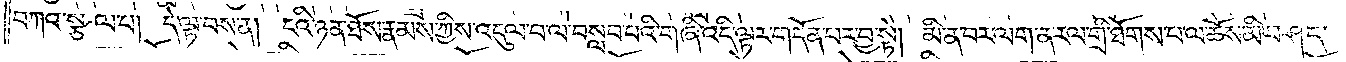བཀའ་སྩལ་པ། དེ་ལྟ་བས་ན། ངའི་ཉན་ཐོས་རྣམས་ཀྱིས་འདུལ་བ་ལ་བསླབ་པའི་གཞི་འདི་ལྟར་གདོན་པར་བྱ་སྟེ། མི་ན་བར་ལག་ན་རལ་གྲི་ཐོགས་པ་ལ་ཆོས་མི་བཤད་
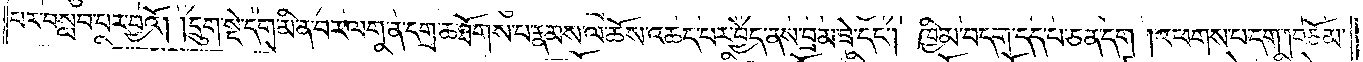པར་བསླབ་པར་བྱའོ། །དྲུག་སྡེ་དག་མི་ན་བར་ལག་ན་དགྲ་ཆ་ཐོགས་པ་རྣམས་ལ་ཆོས་འཆད་པར་བྱེད་ནས་བྲམ་ཟེ་དང༌། ཁྱིམ་བདག་དད་པ་ཅན་དག །འཕགས་པ་དག །བཅོམ་
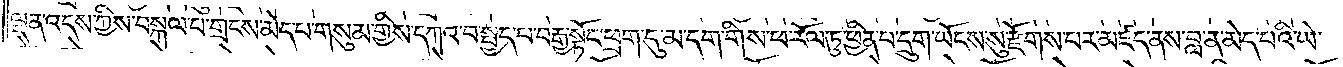ལྡན་འདས་ཀྱིས་བསྐལ་པ་གྲངས་མེད་པ་གསུམ་གྱིས་དཀའ་བ་སྤྱད་པ་བརྒྱ་སྟོང་ཕྲག་དུ་མ་དག་གིས་ཕ་རོལ་ཏུ་ཕྱིན་པ་དྲུག་ཡོངས་སུ་རྫོགས་པར་མཛད་ནས་བླ་ན་མེད་པའི་ཡེ་
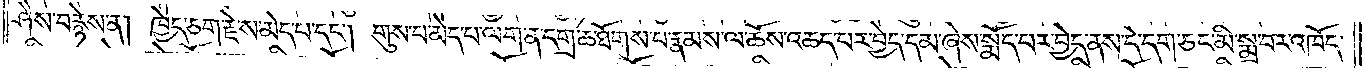ཤེས་བརྙེས་ན། ཁྱེད་ཅག་རྗེས་མེད་པ་དང༌། གུས་པ་མེད་པ་ལག་ན་དགྲ་ཆ་ཐོགས་པ་རྣམས་ལ་ཆོས་འཆད་པར་བྱེད་དམ་ཞེས་སྨོད་པར་བྱེད་ནས་དེ་དག་ཅང་མི་སྨྲ་བར་འཁོད་
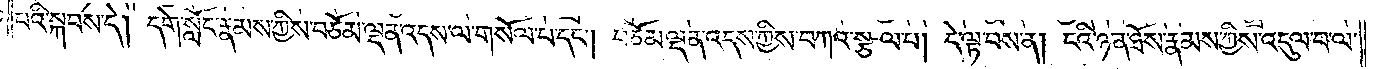པའི་སྐབས་དེ། དགེ་སློང་རྣམས་ཀྱིས་བཅོམ་ལྡན་འདས་ལ་གསོལ་བ་དང༌། བཅོམ་ལྡན་འདས་ཀྱིས་བཀའ་སྩལ་པ། དེ་ལྟ་བས་ན། ངའི་ཉན་ཐོས་རྣམས་ཀྱིས་འདུལ་བ་ལ་
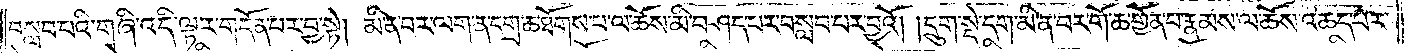བསླབ་པའི་གཞི་འདི་ལྟར་གདོན་པར་བྱ་སྟེ། མི་ན་བར་ལག་ན་དགྲ་ཆ་ཐོགས་པ་ལ་ཆོས་མི་བཤད་པར་བསླབ་པར་བྱའོ། །དྲུག་སྡེ་དག་མི་ན་བར་གོ་ཆ་གྱོན་པ་རྣམས་ལ་ཆོས་འཆད་པར་
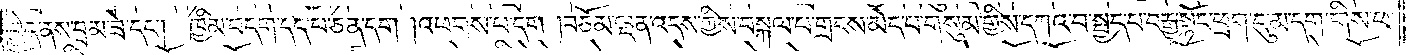བྱེད་ནས་བྲམ་ཟེ་དང༌། ཁྱིམ་བདག་དད་པ་ཅན་དག །འཕགས་པ་དག །བཅོམ་ལྡན་འདས་ཀྱིས་བསྐལ་པ་གྲངས་མེད་པ་གསུམ་གྱིས་དཀའ་བ་སྤྱད་པ་བརྒྱ་སྟོང་ཕྲག་དུ་མ་དག་གིས་ཕ་
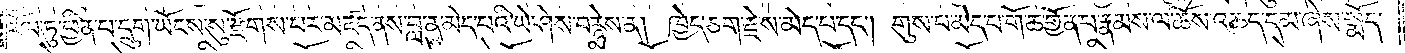རོལ་ཏུ་ཕྱིན་པ་དྲུག་ཡོངས་སུ་རྫོགས་པར་མཛད་ནས་བླ་ན་མེད་པའི་ཡེ་ཤེས་བརྙེས་ན། ཁྱེད་ཅག་རྗེ་ས་མེད་པ་དང༌། གུས་པ་མེད་པ་གོ་ཆ་གྱོན་པ་རྣམས་ལ་ཆོས་འཆད་དམ་ཞེས་སྨོད་
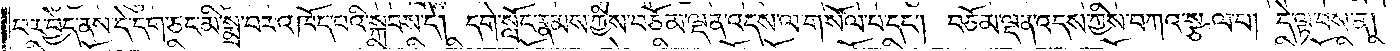པར་བྱེད་ནས་དེ་དག་ཅང་མི་སྨྲ་བར་འཁོད་པའི་སྐབས་དེ། དགེ་སློང་རྣམས་ཀྱིས་བཅོམ་ལྡན་འདས་ལ་གསོལ་པ་དང༌། བཅོམ་ལྡན་འདས་ཀྱིས་བཀའ་སྩལ་པ། དེ་ལྟ་བས་ན།
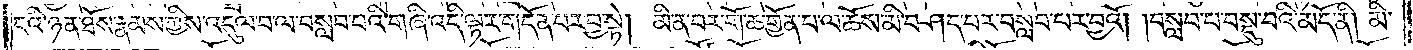ངའི་ཉན་ཐོས་རྣམས་ཀྱིས་འདུལ་བ་ལ་བསླབ་པའི་གཞི་འདི་ལྟར་གདོན་པར་བྱ་སྟེ། མི་ན་བར་གོ་ཆ་གྱོན་པ་ལ་ཆོས་མི་བཤད་པར་བསླབ་པར་བྱའོ། །བསླབ་པ་བསྡུ་བའི་མདོ་ནི། མི་
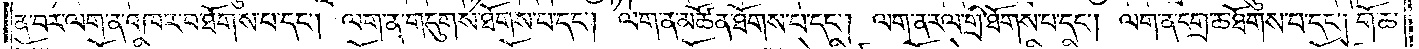ན་བར་ལག་ན་འཁར་བ་ཐོགས་པ་དང༌། ལག་ན་གདུགས་ཐོགས་པ་དང༌། ལག་ན་མཚོན་ཐོགས་པ་དང༌། ལག་ན་རལ་གྲི་ཐོགས་པ་དང༌། ལག་ན་དགྲ་ཆ་ཐོགས་པ་དང༌། གོ་ཆ་
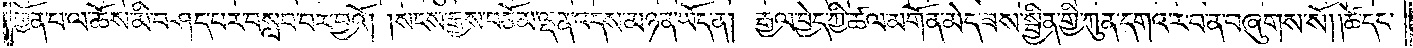གྱོན་པ་ལ་ཆོས་མི་བཤད་པར་བསླབ་པར་བྱའོ། །སངས་རྒྱས་བཅོམ་ལྡན་འདས་མཉན་ཡོད་ན། རྒྱལ་བྱེད་ཀྱི་ཚལ་མགོན་མེད་ཟས་སྦྱིན་གྱི་ཀུན་དགའ་ར་བ་ན་བཞུགས་སོ། །ཚེ་དང་
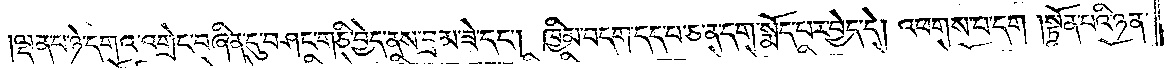ལྡན་པ་ཉེ་དགའ་འགྲེང་བཞིན་དུ་བཤང་གཅི་བྱེད་ནས་བྲམ་ཟེ་དང༌། ཁྱིམ་བདག་དད་པ་ཅན་དག་སྨོད་པར་བྱེད་དེ། འཕགས་པ་དག །སྟོན་པའི་ཉན་
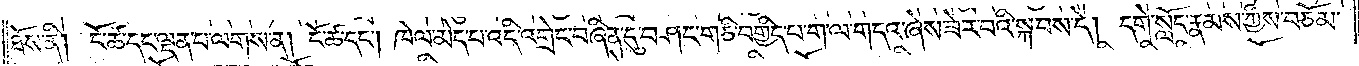ཐོས་ནི། ངོ་ཚ་དང་ལྡན་པ་ལགས་ན། ངོ་ཚ་དང༌། ཁེལ་མེད་པ་འདི་འགྲེང་བཞིན་དུ་བཤང་གཅི་བགྱིད་པ་ག་ལ་གདའ་ཞེས་ཟེར་བའི་སྐབས་དེ། དགེ་སློང་རྣམས་ཀྱིས་བཅོམ་
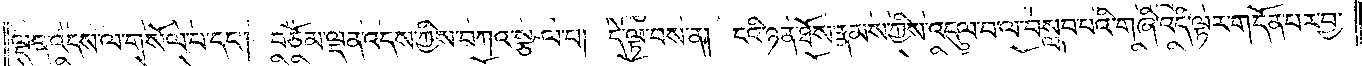ལྡན་འདས་ལ་གསོལ་པ་དང༌། བཅོམ་ལྡན་འདས་ཀྱིས་བཀའ་སྩལ་པ། དེ་ལྟ་བས་ན། ངའི་ཉན་ཐོས་རྣམས་ཀྱིས་འདུལ་བ་ལ་བསླབ་པའི་གཞི་འདི་ལྟར་གདོན་པར་བྱ་
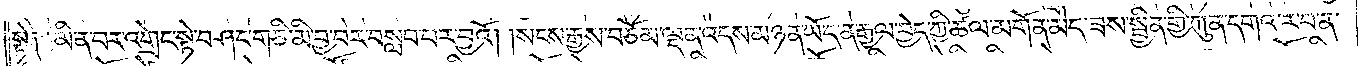སྟེ༑ མི་ན་བར་འགྲེང་སྟེ་བཤང་གཅི་མི་བྱ་བར་བསླབ་པར་བྱའོ། །སངས་རྒྱས་བཅོམ་ལྡན་འདས་མཉན་ཡོད་ན་རྒྱལ་བྱེད་ཀྱི་ཚལ་མགོན་མེད་ཟས་སྦྱིན་གྱི་ཀུན་དགའ་ར་བ་ན་
